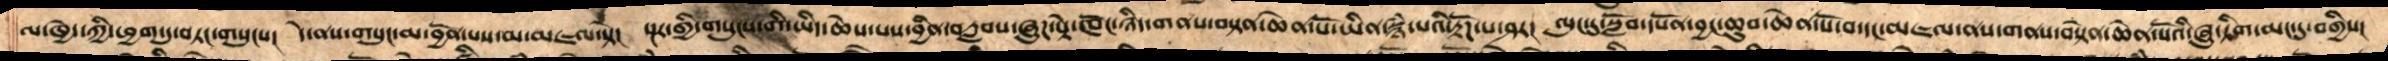ལ་ཁྱེད་ཀྱི་ཕྱག་ཏུ་བཏང་གསུངས།  དེ་ནས་གསུང་མ་བྱོན་པས་མ་མཇལ་སྟེ།  སྔར་ཀྱི་གསུངས་གི་ཡིད་ཆེས་པས་བྱིན་བརླབས་ཞུཌ་སྟེ་ཁོང་ཉིད་གནས་བསྟན་ཆེན་པོ་ཡིན་སྙཾ་པའི་རྟོཌ་པ་ཤར།  ལུང་དུ་སློབ་དཔོན་བྱང་ཆུབ་ཆེན་པོ་བ་དང་མཇལ་ནས་གནས་བསྟེན་ཆེན་པོའི་ཞུ་ཏིག་མང་དུ་བགྱིས།
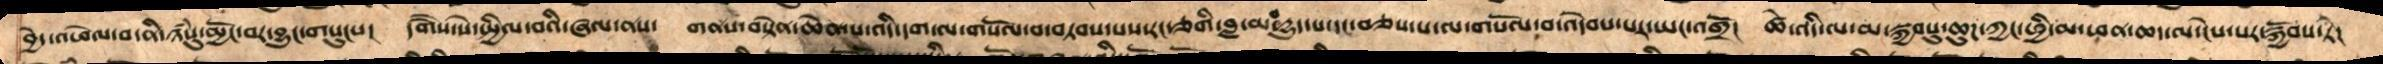བྱེ་འཕེལ་བ་ནི་ཉཾསུ་མྱོང་བར་བྱུང་གསུངས།  དགཻས་སེ་སྤྱིལ་བའི་ཞལ་ནས་  གནས་བསྟེན་ཆེན་པ་འདི་དག་ལ་གསོལ་བ་བཏབས་པས་རང་ཅགི་བླ་མ་བདྱུད་པ་དང་བཅས་པ་ལ་གསོལ་བ་འདེབས་པར་ཡང་འགྲོ།  ཚེ་འདི་ལ་མ་སྐྱབསུ་ཆུཌ་ཀྱང་ཕྱི་མ་ཕན་ཆད་ལ་ངེས་པར་སྐྱོབས་ཏེ།
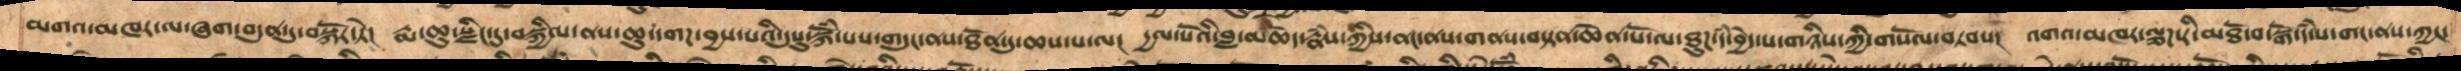མགའ་མཁར་ལ་ཞག་བདུན་དུ་བསྐོར་ཏེ།  རྨ་ཆུ་སྫིང་དུ་བསྐྱིལ་ནས་ཆུ་དགཌ་བྱས་པའི་དུསུ་སྐོཾ་པས་གདུང་ནས་ཐོན་དུ་ཆས་པ་ལ།  དྱལ་པོའི་བླ་མཆོད་རྣཾས་ཀྱིས་ནང་ནས་གནས་བསྟན་ཆེན་པོ་ལ་ཐུཌ་དཾ་བྱེད་པ་གཉིས་ཀྱི་གསོལ་བཏབས།  འགའ་མཁར་ལྕཌ་རི་མཐོ་བ་སྒོ་དཾ་པ་གང་ནས་ཀྱང་
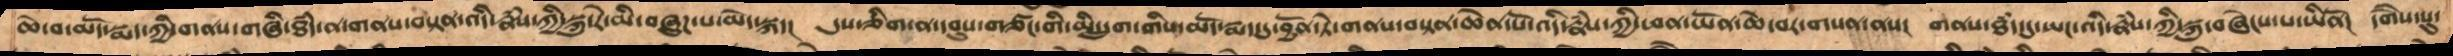ཆེ་བ་མདོ་སྨད་ཀྱི་གནས་གཞི་ཐཾད་ན་གནས་བསྟན་འདི་རྣཾས་ཀྱི་སྐུ་རེ་མི་བཞུཌ་པ་མེད་སྐད།  དུས་ཅིག་ན་དབུས་གཙང་གི་མི་དྲུག་གིས་མདོ་སྨད་དུ་བྱོན་ཏེ་གནས་བསྟན་ཆེན་པོ་འདི་རྣཾས་ཀྱི་ཕན་ཡོན་ཆེ་བར་གསན་ནས།  གནས་ཐཾད་དུ་ཡང་འདི་རྣཾས་ཀྱི་སྐུ་བཞེངས་པ་ཡིནོ།  དགཻས་པུ
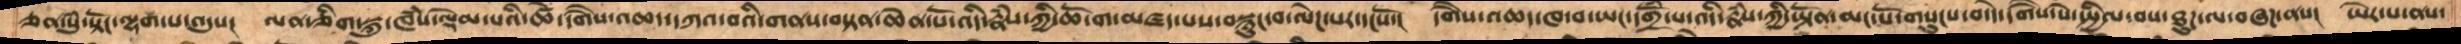ཅན་སུཾ་སྟོང་ལྷག་པ་འདུས།  ལན་ཅིག་སྐུ་ཁཾས་ལྡེམ་པའི་ཚེ་དགཻས་འཆད་དཀའ་བའི་གནས་བསྟན་ཆེན་པོ་འདི་རྣཾས་ཀྱི་ཆོ་ག་མཛད་པས་བསྙུང་བ་ལེཌ་པར་དངསོ།  དགཻས་འཆད་ཁ་བ་ཡང་དགྲོཾ་པ་འདི་རྣཾས་ཀྱི་ཡྟོན་མང་པོ་གསུངས་བ་དེ་དགཻས་སེ་སྤྱིལ་བས་ཐུཌ་ལ་བཞཌ་ནས།  ཡེར་པ་ནས་
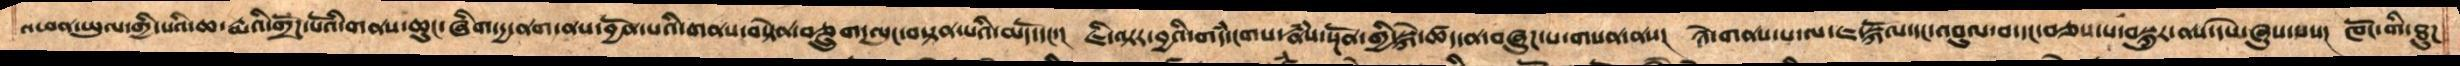འཕན་ཡུལ་གྱི་སའི་ཆ་རྨའི་གྲོཌ་པོའི་གནས་ཆུང་ཞིག་དྱ་ནག་ནས་བྱོན་པའི་གནས་བསྟེན་བཅྲུག་ལུང་བསྟན་པའི་མདོ་དང་།  ཇི་ལྟར་བྱ་བའི་གདཾ་ངགས་རྣཾས་སྔོན་གྱི་སྐེ་ཚད་ན་བཞུཌ་པ་གསན་ནས།  ཉེ་གནས་པ་ལ་ཇ་་སྐོལ་དང་འབུལ་བ་དང་བཅས་པ་བསྐུར་ནས་དཔེ་ཞུས་པས།  ཁོང་གི་ཐུཌ་
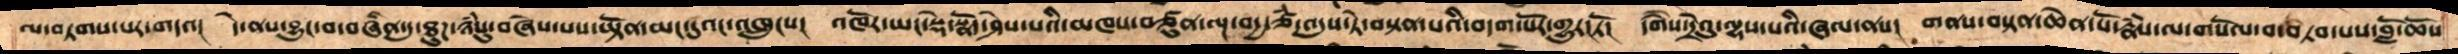ལ་བཏགས་པར་གདའ།  དེ་ནས་བྱུང་བ་བཞིན་དུ་ཐུཌ་ཉཾསུ་བཞེས་པས་ཡྟོན་མང་དུའང་འཁྲུངས།  འཁོར་ཡང་སྡེ་སྣོད་ཤེས་པའི་མཁས་བཙུན་ལྔ་བདྱ་ཙཾ་འདུས་ཏེ་བསྟན་པའི་བདག་པོར་གྱུར་ཏོ།  དགཻས་དྲེའུ་ལྷས་པའི་ཞལ་ནས།  གནས་བསྟན་ཆེན་པོ་རྣཾས་ལ་གསོལ་བ་བཏབ་པས་བློ་ཆོས
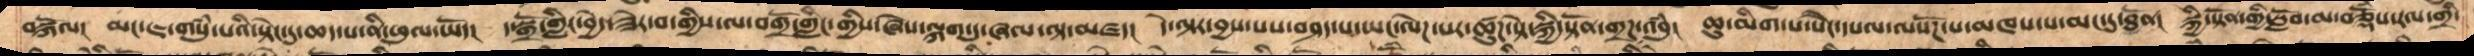བསྐོལ།  མང་ཇ་གསུཾ་པའི་སྟེང་དུ་ཆད་པ་ནི་ཕུལ་ཡོད།  ད་སྒྲོ་གླིང་བྱེད་ཟེར་བ་གྱིས་ལ་བགྲོ་གླིང་གྱིས་ཞེས་ལྐག་དུ་ཞལ་ལྟ་མཛད།  དེ་ལྟར་བྱས་པས་བཤད་པ་ཡང་ལེད་པར་ཚུཌ་སྟེ་སྐྱི་སྟོན་གྲཌ་འབུཾ།  ཆུ་མིག་པ་སཻང་དཔལ་ལསོཌ་པ་མཁས་པ་མང་དུ་ཐོན། སྐྱི་སྟོན་གྱི་སློབ་མ་བཅྡོཾས་རལ་གྲི་
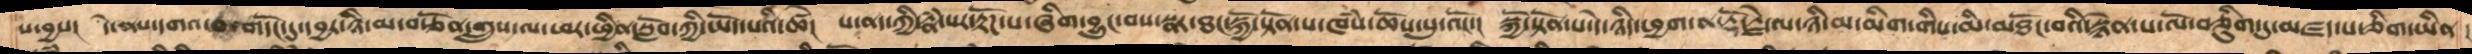པ་བྱས།  དེ་ནས་དགའ་བ་གདོང་དུ་དབྱར་ཉི་མ་བརྩོན་འགྲུས་ལ་ཕར་ཕྱིན་སློབ་ཀྱི་ཡོད་པའི་ཚེ།  ས་ནད་ཀྱི་རྣཾ་པར་རྟོཌ་པ་ཞིག་བྱུང་བས་སྣར་ཐང་་སྐྱོ་སྟོན་པ་ཁཾས་ཆོས་སུ་འོང།  སྐྱོ་སྟོན་པ་དེ་ཉིད་ཕྱག་ན་རྡོ་རྗེ་ལ་ཉི་མ་མིག་གིས་མི་མཐོང་བའི་སྙེན་པ་ལོ་བཅིུག་དུ་མཛད་པ་ཅིག་ཡིན
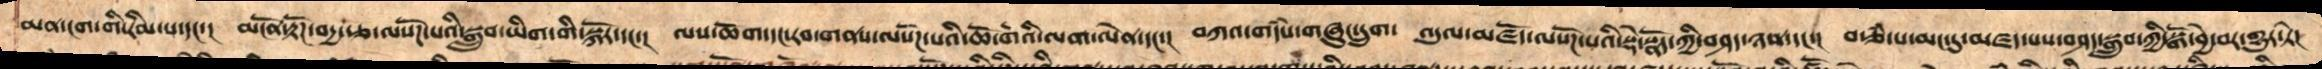མན་ངག་གི་རིམ་པ་དང་།  མངོན་རྟོཌ་བདྱ་རྩ་ལསོཌ་པ་སྒྲུབ་ཡིག་གི་སྐོར་དང་།  ལས་ཆོག་དང་རབ་གནས་ལསོཌ་པ་ཆོ་གའི་ལག་ལེན་དང་།  བཀའ་གདཾས་གཞུང་དྲུག་  འདུལ་མཛོད་ལསོཌ་པའི་སྡེ་སྣོད་ཀྱི་བཤད་ཉན་དང་།  བརྩཾ་པ་མང་དུ་མཛད་པས་བཤད་སྒྲུབ་ཀྱི་སྒོ་བྱེ་བར་གྱུར་ཏེ།
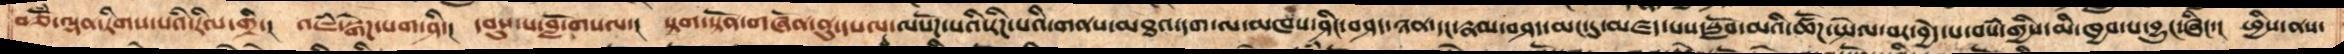བཅོཾ་ལྡན་རིགས་པའི་རལ་གྲི།  འཇཾ་སྒེཌ་པག་ཤི་།  དབུས་པ་བློ་གསལ།  སྟག་སྟོན་གཞོན་ནུ་དཔལ་ལསོཌ་པ་རིཌ་པའི་གནས་མཐའ་དག་ལ་མཁས་ཤིང་བཤད་ཉན་དང་རྣམ་བཤད་མང་དུ་མཛད་པས་སློབ་མའི་ཚོཌ་སྤེལ་བར་བྱེད་པ་བསཾ་གྱིས་མི་ཁྱབ་པ་བྱུང་ཞིང་།  ཕྱིས་ནས་
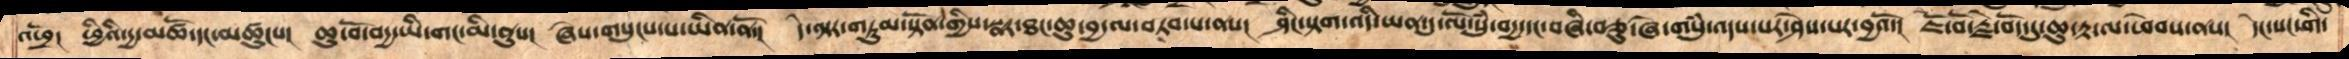འཕྲོ།  ཕྱིའི་དྱ་མཚོ་དང་མཚུངས།  ཆུ་བོ་བདྱ་ཡིས་གང་མི་ནུས།  ཞེས་གསུངས་པ་ཡིན་ནོ།།  དེ་ལྟར་གཏུམ་སྟོན་གྱིས་སྣར་ཐང་ཆུ་བྱ་ལ་བཏབ་པ་ནས།   ཤིང་སྟག་འདི་ཡན་དུ་ལོ་སུཾ་བདྱ་དང་བཞི་བཅུ་ཞེ་གསུཾ་འདས་པར་ཤེས་པར་བྱའོ།  ཇོ་བོ་རྗེ་བོད་དུ་ཆུ་རྟ་ལ་ཕེབས་ནས།  དེང་སང་གི་
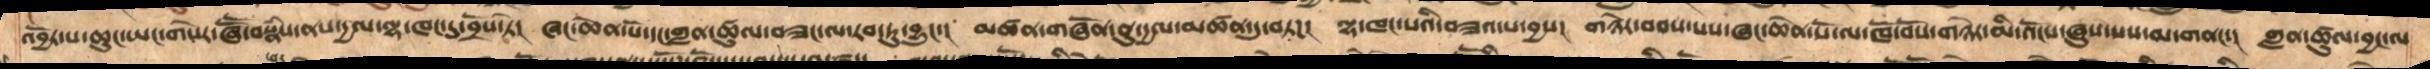འབྱོར་པ་ཆུང་ཡང་གསེར་ཞཽ་བསྣཾས་ནས་དྱལ་ལྷ་ཁང་དུ་བྲོས་ཏེ།  ཞང་ཆེན་པོ་དང་གླན་ཚུལ་དབཟང་ལ་རབ་ཏུ་བྱུང་།  མཚན་གཞོན་ནུ་དྱལ་མཚན་དུ་བཏཌ།  ལྷ་ཁང་པའི་བཟའ་པ་བྱས།  གཉེར་བབས་པས་ཞང་ཆེན་པོ་ལ་ཁོ་བོས་གཉེར་མི་འོངས་ཞུས་པས་མ་གནང་།  གླན་ཚུལ་བྱང་ལ་
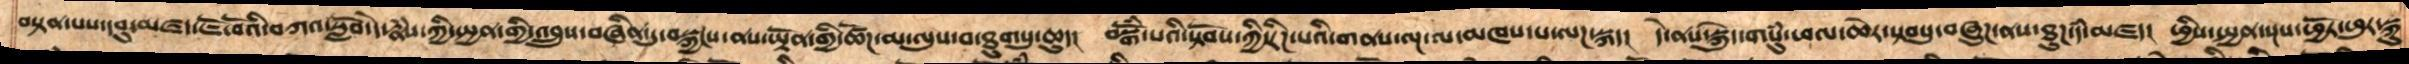བསྟན་པས་དབུ་མཛད་ཇོ་བོའི་བཀའ་སློབ་དེ་རྣཾས་ཀྱི་སྤྱན་གྱི་འབྲུས་བཞིན་དུ་བསྐྱངས་ནས་ཡྟོན་གྱི་ཚོཌ་མ་ལུས་པ་ཐུགསུ་ཆུད།  བསྒོཾ་པའི་སྟོབས་ཀྱི་རིཌ་པའི་གནས་ལྔ་ལ་མཁས་པ་ལཌ་སྐད།  དེ་ནས་སྐུདེ་གསུཾ་ཕལ་ཆེར་སྟབསུ་བཞུཌ་ནས་ཐུཌ་དཾ་མཛད། ཕྱིས་སྤྱན་སྔས་ཕྱོར་ཕུར་སྐུ
